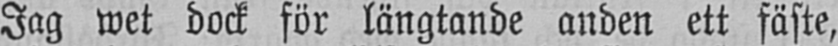Jag wet dock för längtande anden ett fäste,
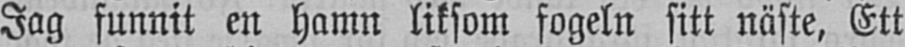Jag funnit en hamn liksom fogeln sitt näste, Ett
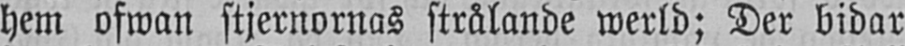hem ofwan stjernornas strålande werld; Der bidar
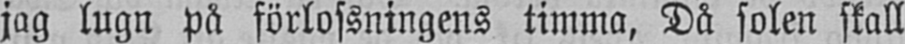jag lugn på förlossningens timma, Då solen skall
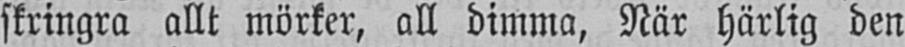skringra allt mörker, all dimma, När härlig den
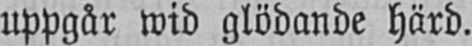uppgår wid glödande härd.
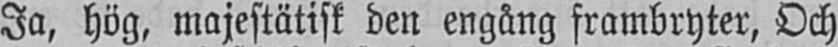Ja, hög, majestätisk den engång frambryter, Och
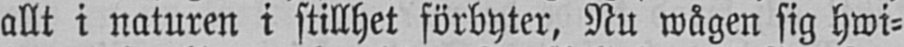allt i naturen i stillhet förbyter, Nu wågen sig hwi-
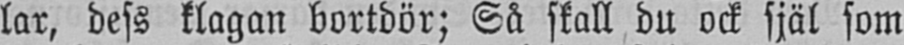lar, dess klagan bortdör; Så skall du ock själ som
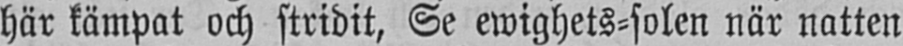här kämpat och stridit, Se ewighets-solen när natten
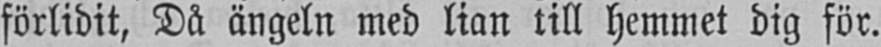förlidit, Då ängeln med lian till hemmet dig för.
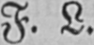F. L.
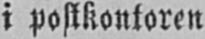i postkontoren
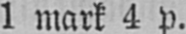1 mark 4 p.
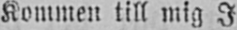Kommen till mig I
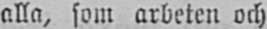alla, som arbeten och
